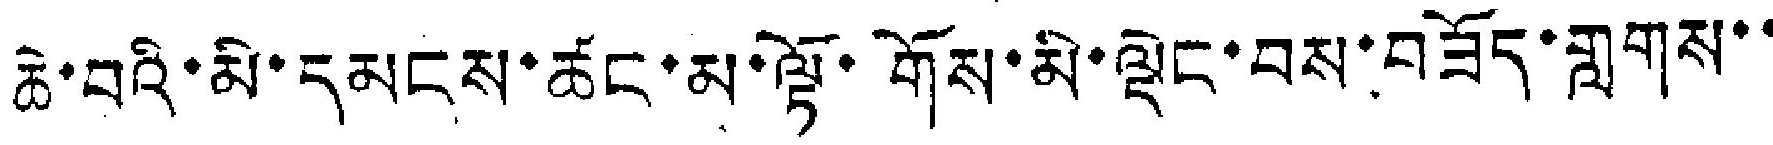ཆེ་བའི་མི་དམངས་ཚང་མ་ལྟོ་གོས་མི་ལྡེང་བས་བཟོད་གླགས་་
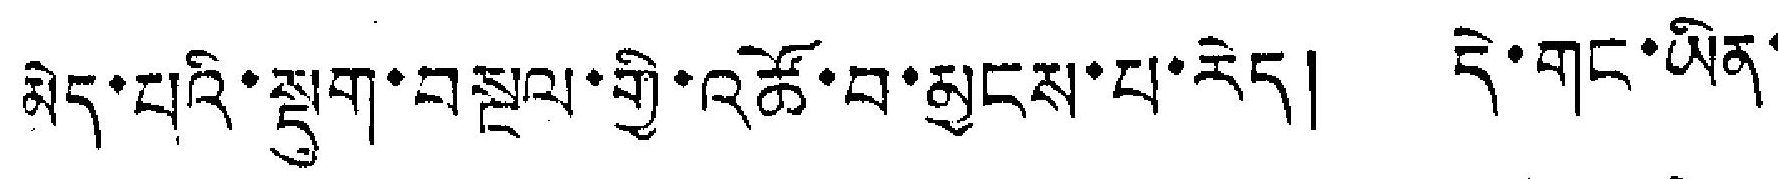མེད་པའི་སྡུག་བསྔལ་གྱི་འཚོ་བ་མྱངས་པ་རེད། དེ་གང་ཡིན་
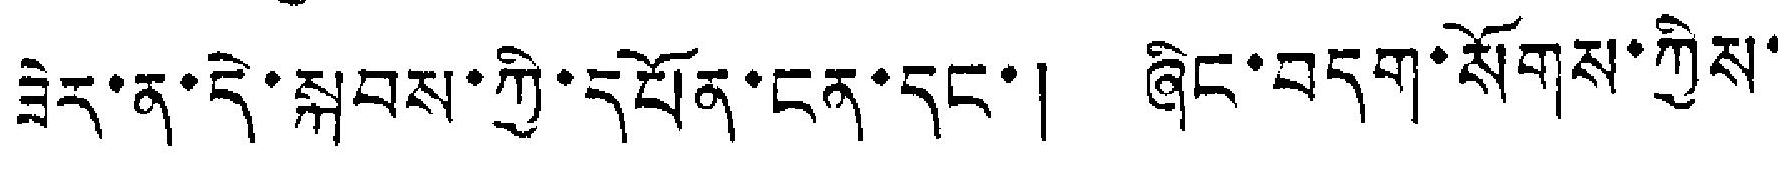ཟེར་ན་དེ་སྐབས་ཀྱི་དཔོན་ངན་དང་། ཞིང་བདག་སོགས་ཀྱིས་
